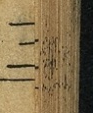三
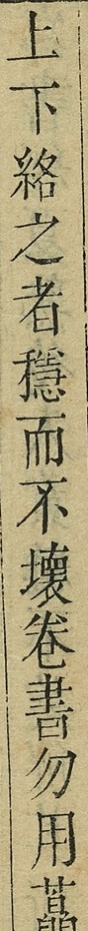上下絡之者穩而不壊卷書勿用藠
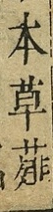本草薤
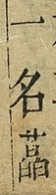一名藠
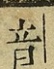音
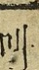叫
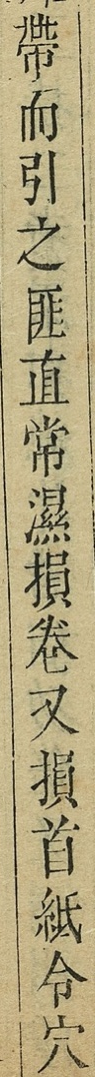帶而引之匪直常濕損卷又損首紙令穴
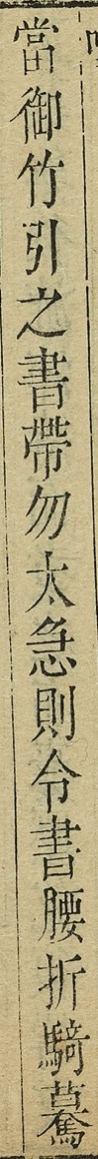當御竹引之書帶勿太急則令書腰折騎驀
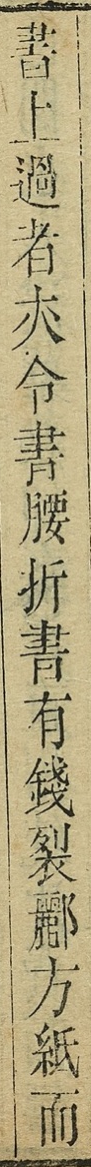書上過者亦令書腰折書有錢裂酈方紙而
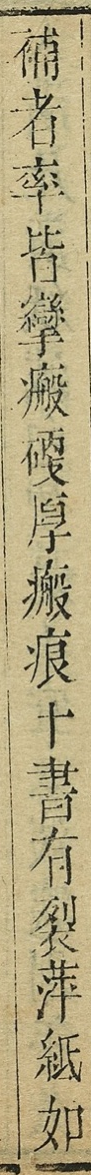補者率皆攣瘢硬厚瘢痕十書有裂萍紙如
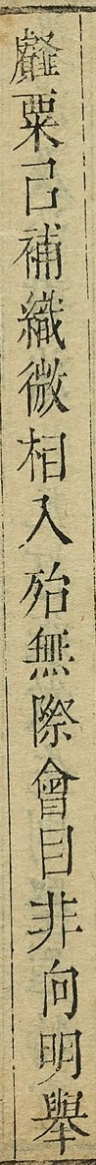薤粟以補織微相入殆無際會目非向明舉
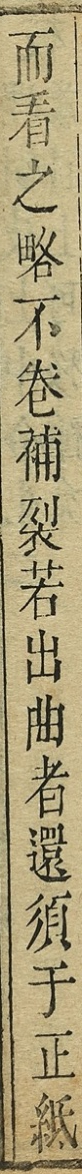而看之略不卷補裂若出曲者還須于正紙
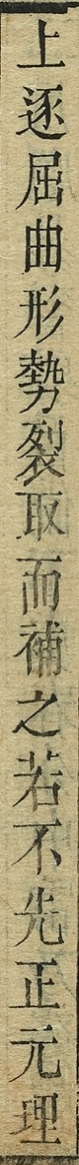上逐屈曲形勢裂取而補之若不先正元理
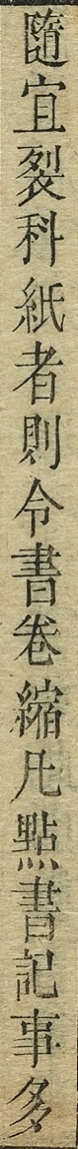隨宜裂科紙者則令書卷縮凡點書記事多
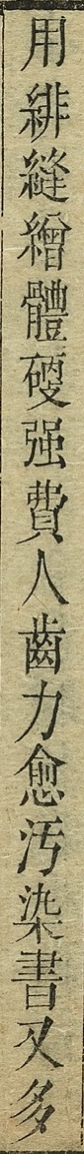用緋縫繒體硬強費人齒力愈汚染書又多
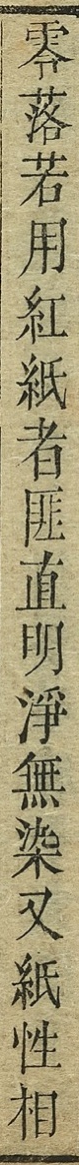零落若用紅紙者匪直明淨無染又紙性相
